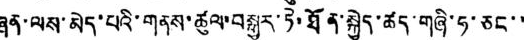ཞན་ལས་མེད་པའི་གནས་ཚུལ་བསྒྱུར་ཏེ་ཐོན་སྐྱེད་ཚད་གཞི་ཧ་ཅང་་
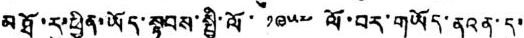མཐོ་རུ་ཕྱིན་ཡོད་སྟབས་སྤྱི་ལོ་ ༡༩༥༧ ལོ་བར་གཡོད་ནའན་དུ་་
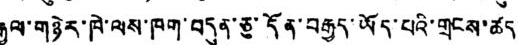རྒྱལ་གཉེར་ཁེ་ལས་ཁག་བདུན་ཅུ་དོན་བརྒྱད་ཡོད་པའི་གྲངས་ཚད་
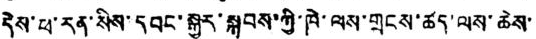དེས་ཕ་རན་སིས་དབང་སྐྱུར་སྐབས་ཀྱི་ཁེ་ལས་གྲངས་ཚད་ལས་ཆེས་
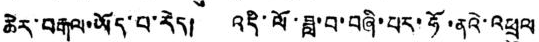ཆེར་བརྒལ་ཡོད་པ་རེད། འདི་ལོ་ཟླ་བ་བཞི་པར་ཧོ་ནའེ་འཕྲུལ
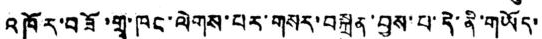འཁོར་བཟོ་གྲྭ་ཁང་ལེགས་པར་གསར་བསྐྲུན་བྱས་པ་དེ་ནི་གཡོད་
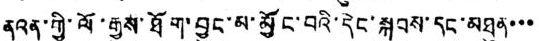ནའན་གྱི་ལོ་རྒྱུས་ཐོག་བྱུང་མ་མྱོང་བའི་དེང་སྐབས་དང་མཐུན་་་
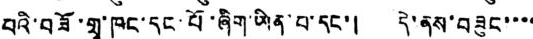པའི་བཟོ་གྲྭ་ཁང་དང་པོ་ཞིག་ཡིན་པ་དང་། དེ་ནས་བཟུང་་་་
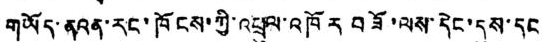གཡོད་ནའན་རང་ཁོངས་ཀྱི་འཕྲུལ་འཁོར བཟོ་ལས་དེང་དུས་དང
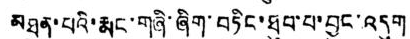མཐུན་པའི་རྨང་གཞི་ཞིག་བཏིང་ཐུབ་པ་བྱུང་འདུག
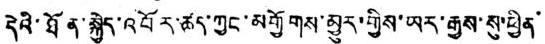དེའི་ཐོན་སྐྱེད་འབོར་ཚད་ཀྱང་མགྱོགས་མྱུར་གྱིས་ཡར་རྒྱས་སུ་ཕྱིན་
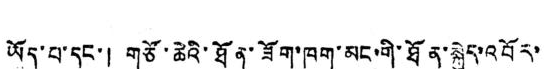ཡོད་པ་དང་། གཙོ་ཆེའི་ཐོན་ཟོག་ཁག་མང་གི་ཐོན་སྐྱེད་འབོར་
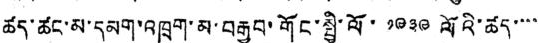ཚད་ཚང་མ་དམག་འཁྲུག་མ་བརྒྱབ་གོང་སྤྱི་ལོ་ ༡༩༣༩ ལོའི་ཚད་་་་
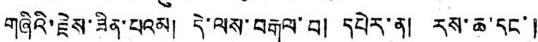གཞིའི་རྗེས་ཟིན་པའམ། དེ་ལས་བརྒལ་བ། དཔེར་ན། རས་ཆ་དང་།
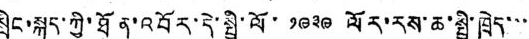སྲིང་སྐུད་ཀྱི་ཐོན་འབོར་དེ་སྤྱི་ལོ་ ༡༩༣༩ ལོར་རས་ཆ་སྤྱི་ཁྲེད་་་
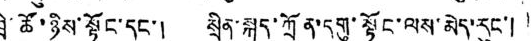ཁྲི་ཚོ་ཉིས་སྟོང་དང་། སྲིན་སྐུད་ཀྲོན་དགུ་སྟོང་ལས་མེད་རུང་།
